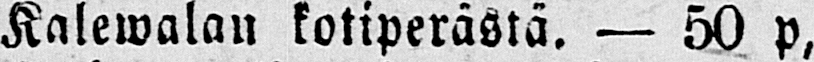Kalewalan kotiperästä. — 50 p,
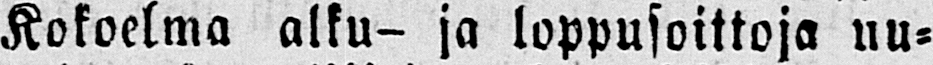Kokoelma alku- ja loppusoittoja uu-
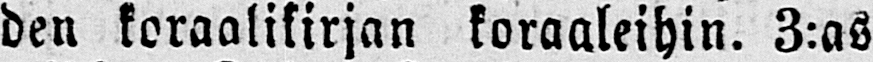den koraalikirjan koraaleihin. 3:as
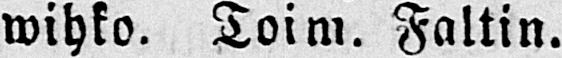wihko. Toim. Faltin.
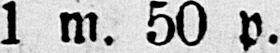1 m. 50 p.
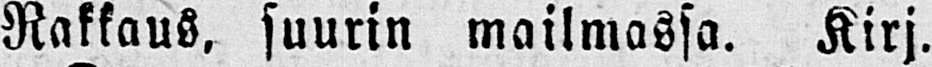Rakkaus, suurin mailmassa. Kirj.
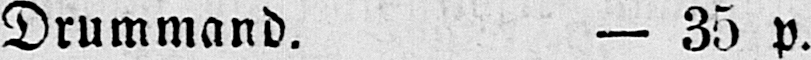Drummand. — 35 p.
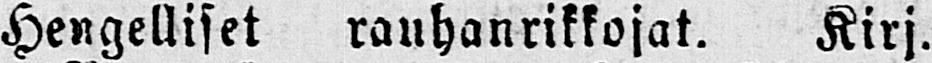Hengelliset rauhanrikkojat. Kirj.
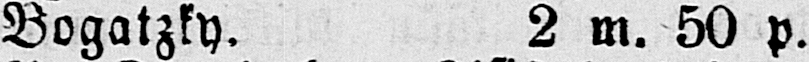Bogatzky. 2 m. 50 p.
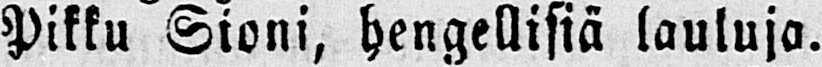Pikku Sioni, hengellisiä lauluja.
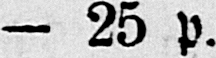- 25 p.
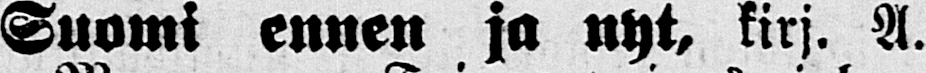Suomi ennen ja nyt, kirj. A.
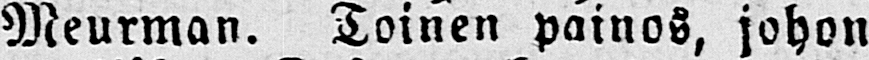Meurman. Toinen painos, johon
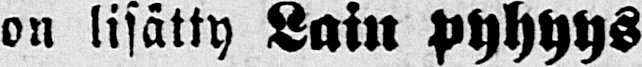on lisätty Lain Pyhyys
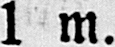1 m.
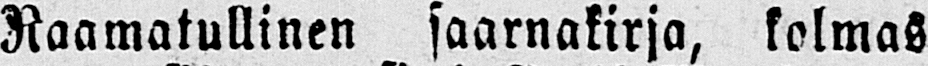Raamatullinen saarnakirja, kolmas
